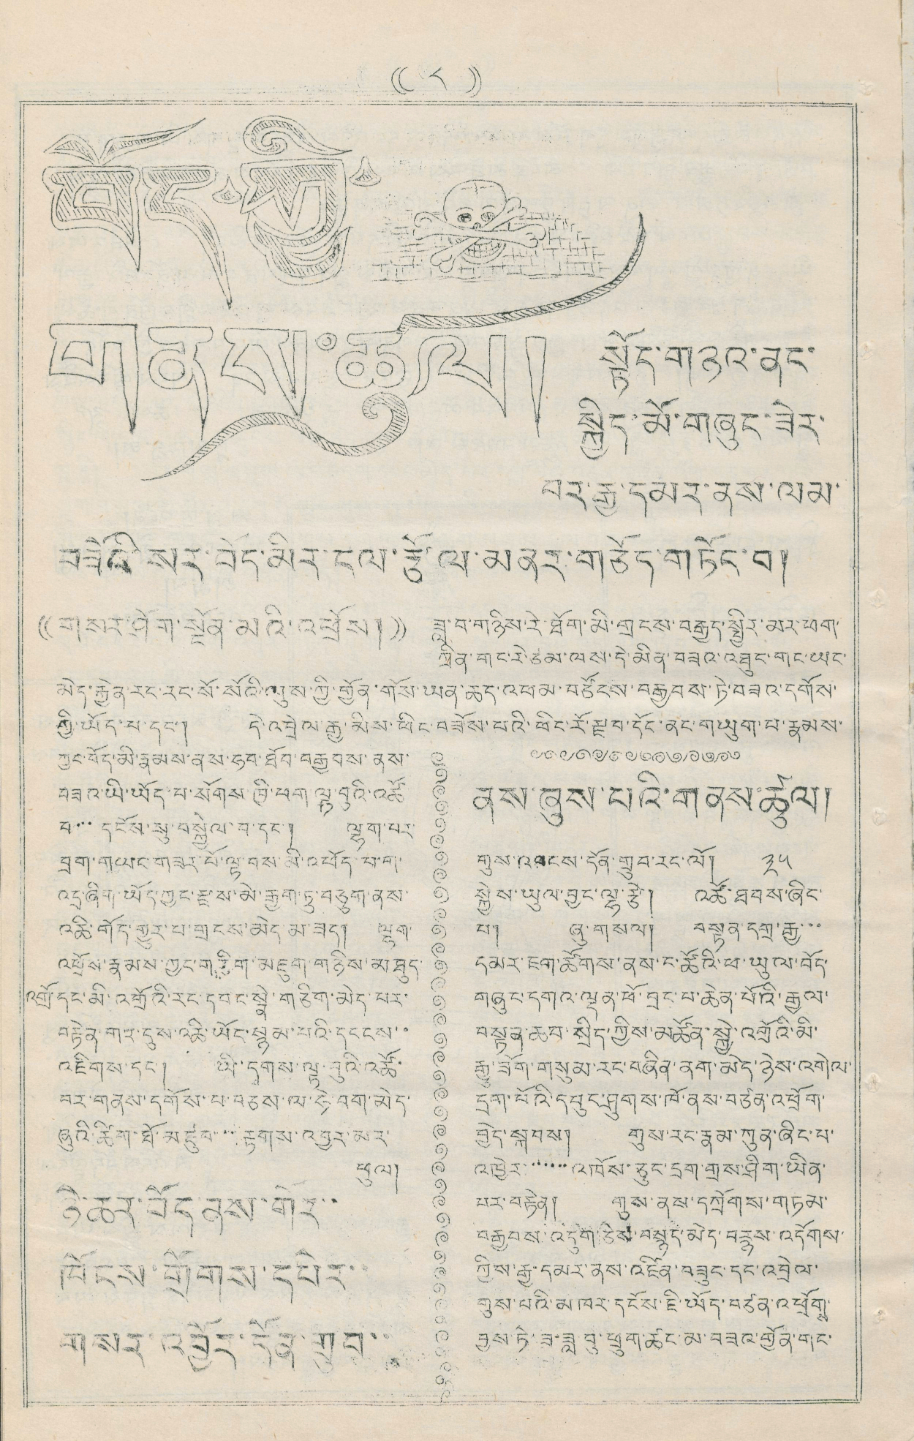(( ༨ ))
བོད་ཀྱི་
གནས་ཚུལ།
སྟོད་གཉའ་ནང་
སྐྱིད་མོ་གཞུང་ཟེར་
བར་རྒྱ་དམར་ནས་ལམ་
བཟོའི་སར་བོད་མིར་ངལ་རྩོལ་མནར་གཅོད་གཏོང་བ།
(( གསར་ཤོག་སྔོན་མའི་འཕྲོས། ))
ཟླ་བ་གཉིས་རེ་ཐོག་མི་གྲངས་བརྒྱུད་སྤྱིར་མར་ཕག་
ཀྲིན་གང་རེ་ཙམ་ལས་དེ་མིན་བཟའ་འཐུང་གང་ཡང་
མེད་རྐྱེན་རང་རང་སོ་སོའི་ལུས་ཀྱི་གྱོན་གོས་ཡན་ཆེད་འཕམ་བཙོངས་བརྒྱབས་ཏེ་བཟའ་དགོས་
ཀྱི་ཡོད་པ་དང་། དེ་འབྲེལ་རྒྱ་མིས་ཕིང་བཟོས་པའི་ཕིང་རོ་རྫབ་དོང་ནང་གཡུག་པ་རྣམས་
ཀྱང་བོད་མི་རྣམས་ནས་ཧབ་ཐོབ་བརྒྱབས་ནས་
བཟའ་ཡི་ཡོད་པ་སོགས་ཁྱི་ཕག་ལྟ་བུའི་འཚོ་
བ་་་དངོས་སུ་བསྐྱེལ་བ་དང་། ལྷག་པར་
བྲག་གཡང་གཟར་པོ་ལྟ་བས་མི་འཕོད་པ་ག་
འདྲ་ཞིག་ཡོད་ཀྱང་རྗེས་མེ་རྒྱག་ཏུ་བཅུག་ནས་
འཆི་གོད་གྱུར་པ་གྲངས་མེད་མ་ཟད། ལྷག་
འཕྲོས་རྣམས་ཀྱང་གཅིག་མཇུག་གཉིས་མཐུད་
འགྲོ་དང་མི་འགྲོའི་རང་དབང་སྣེ་གཅིག་མེད་པར་
བརྟེན་གར་དུས་འཆི་ཡོང་སྙམ་པའི་དངངས་་
འཇིགས་དང་། ཡི་དྭགས་ལྟ་བུའི་འཚོ་
བར་གནས་དགོས་པ་བཅས་ལ་ཧེ་བག་མེད་
ཞུའི་ཚིག་ཐོ་མཛུབ་བརྟགས་འབྱར་མར་
ཕུལ།
ཉེ་ཆར་བོད་ནས་གོར་་
ཁོངས་གྲོགས་དཔེར་་
གསར་འབྱོར་དོན་གྲུབ་་
ནས་ཞུས་པའི་གནས་ཚུལ།
གུས་འབངས་དོན་གྲུབ་རང་ལོ། ༣༥
སྐྱེས་ཡུལ་བྱང་ལྷ་རྩེ། འཚོ་ཐབས་ཞིང་
པ། ཞུ་གསལ། བསྟན་དགྲ་རྒྱ་་་
དམར་ཇག་ཚོགས་ནས་ང་ཚོའི་ཕ་ཡུལ་བོད་
གཞུང་དགའ་ལྡན་ཕོ་བྲང་པ་ཆེན་པོའི་རྒྱལ་
བསྟན་ཆབ་སྲིད་ཀྱིས་མཚོན་སྐྱེ་འགྲོའི་མི་
རྒྱུ་ཟོག་གསུམ་རང་བཞིན་ནག་མེད་ཉེས་འགེལ་
དྲག་པོའི་དཔུང་ཤུགས་ཁོ་ནས་བཙན་འཕྲོག་
བྱེད་སྐབས། གུས་རང་རྣམ་ཀུན་ཞིང་པ་
འཁྱེར་་་་་་འཁོས་ཅུང་དྲག་གྲས་ཤིག་ཡིན་
པར་བརྟེན། གུས་ནས་དཀྲོགས་གཏམ་
བརྒྱབས་འདུག་ཅེས་བསྙད་མེད་བརྙས་འདོགས་
ཀྱིས་རྒྱ་དམར་ནས་འཛིན་བཟུང་དང་འབྲེལ་
གུས་པའི་མཁར་དངོས་ཇི་ཡོད་བཙན་འཕྲོགྶ་
བྱས་ཏེ་ཟ་ཟླ་བུ་ཕྲུག་ཚང་མ་བཟའ་གྱོན་གང་
